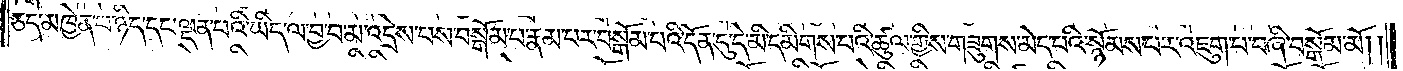ཅད་མཁྱེན་པ་ཉིད་དང་ལྡན་པའི་ཡིད་ལ་བྱ་བ་མ་འདྲེས་པས་བསྒོམ་པ་རྣམ་པར་བསྒོམ་པའི་དོན་དུ་དེ་མི་དམིགས་པའི་ཚུལ་གྱིས་གཟུགས་མེད་པའི་སྙོམས་པར་འཇུག་པ་བཞི་བསྒོམ་མོ། །
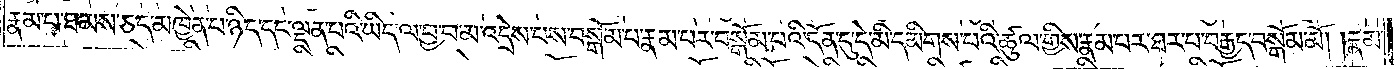རྣམ་པ་ཐམས་ཅད་མཁྱེན་པ་ཉིད་དང་ལྡན་པའི་ཡིད་ལ་བྱ་བ་མ་འདྲེས་པས་བསྒོམ་པ་རྣམ་པར་བསྒོམ་པའི་དོན་དུ་དེ་མི་དམིགས་པའི་ཚུལ་གྱིས་རྣམ་པར་ཐར་པ་བརྒྱད་བསྒོམ་མོ། །རྣམ་
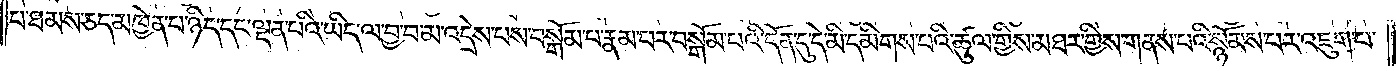པ་ཐམས་ཅད་མཁྱེན་པ་ཉིད་དང་ལྡན་པའི་ཡིད་ལ་བྱ་བ་མ་འདྲེས་པས་བསྒོམ་པ་རྣམ་པར་བསྒོམ་པའི་དོན་དུ་དེ་མི་དམིགས་པའི་ཚུལ་གྱིས་མཐར་གྱིས་གནས་པའི་སྙོམས་པར་འཇུག་པ་
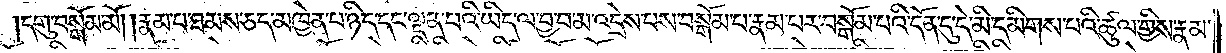དགུ་བསྒོམ་མོ། །རྣམ་པ་ཐམས་ཅད་མཁྱེན་པ་ཉིད་དང་ལྡན་པའི་ཡིད་ལ་བྱ་བ་མ་འདྲེས་པས་བསྒོམ་པ་རྣམ་པར་བསྒོམ་པའི་དོན་དུ་དེ་མི་དམིགས་པའི་ཚུལ་གྱིས་རྣམ་
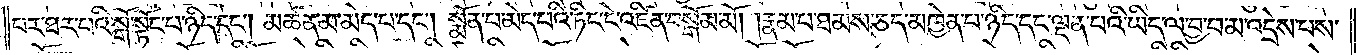པར་ཐར་བའི་སྒོ་སྟོང་པ་ཉིད་དང༌། མཚན་མ་མེད་པ་དང༌། སྨོན་པ་མེད་པའི་ཏིང་ངེ་འཛིན་བསྒོམ་མོ། །རྣམ་པ་ཐམས་ཅད་མཁྱེན་པ་ཉིད་དང་ལྡན་པའི་ཡིད་ལ་བྱ་བ་མ་འདྲེས་པས་
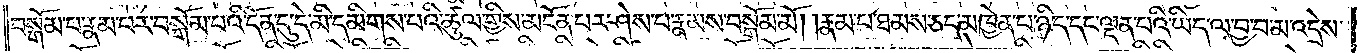བསྒོམ་པ་རྣམ་པར་བསྒོམ་པའི་དོན་དུ་དེ་མི་དམིགས་པའི་ཚུལ་གྱིས་མངོན་པར་ཤེས་པ་རྣམས་བསྒོམ་མོ། །རྣམ་པ་ཐམས་ཅད་མཁྱེན་པ་ཉིད་དང་ལྡན་པའི་ཡིད་ལ་བྱ་བ་མ་འདྲེས་
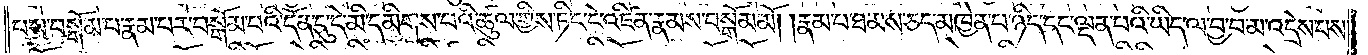པས་བསྒོམ་པ་རྣམ་པར་བསྒོམ་པའི་དོན་དུ་ད་མི་དམིགས་པའི་ཚུལ་གྱིས་ཏིང་ངེ་འཛིན་རྣམས་བསྒོམ་མོ། །རྣམ་པ་ཐམས་ཅད་མཁྱེན་པ་ཉིད་དང་ལྡན་པའི་ཡིད་ལ་བྱ་བ་མ་འདྲེས་པས་
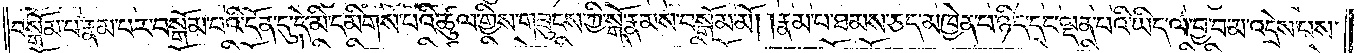བསྒོམ་པ་རྣམ་པར་བསྒོམ་པའི་དོན་དུ་དེ་མི་དམིགས་པའི་ཚུལ་གྱིས་གཟུངས་ཀྱི་སྒོ་རྣམས་བསྒོམ་མོ། །རྣམ་པ་ཐམས་ཅད་མཁྱེན་པ་ཉིད་དང་ལྡན་པའི་ཡིད་ལ་བྱ་བ་མ་འདྲེས་པས་
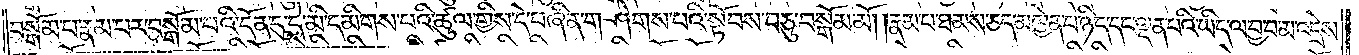བསྒོམ་པ་རྣམ་པར་བསྒོམ་པའི་དོན་དུ་དེ་མི་དམིགས་པའི་ཚུལ་གྱིས་དེ་བཞིན་གཤེགས་པའི་སྟོབས་བཅུ་བསྒོམ་མོ། །རྣམ་པ་ཐམས་ཅད་མཁྱེན་པ་ཉིད་དང་ལྡན་པའི་ཡིད་ལ་བྱ་བ་མ་འདྲེས་
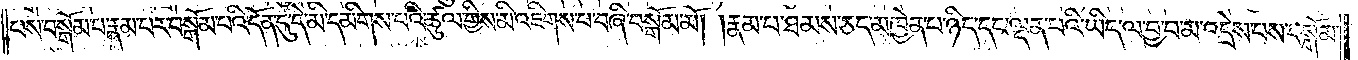པས་བསྒོམ་པ་རྣམ་པར་བསྒོམ་པའི་དོན་དུ་དེ་མི་དམིགས་པའི་ཚུལ་གྱིས་མི་འཇིགས་པ་བཞི་བསྒོམ་མོ། །རྣམ་པ་ཐམས་ཅད་མཁྱེན་པ་ཉིད་དང་ལྡན་པའི་ཡིད་ལ་བྱ་བ་མ་འདྲེས་པས་བསྒོམ་
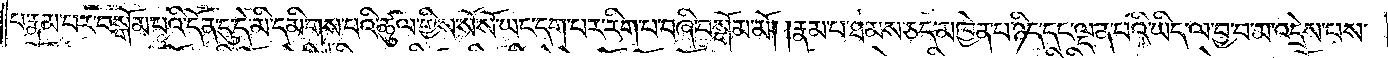པ་རྣམ་པར་བསྒོམ་པའི་དོན་དུ་དེ་མི་དམིགས་པའི་ཚུལ་གྱིས་སོ་སོ་ཡང་དག་པར་རིག་པ་བཞི་བསྒོམ་མོ། །རྣམ་པ་ཐམས་ཅད་མཁྱེན་པ་ཉིད་དང་ལྡན་པའི་ཡིད་ལ་བྱ་བ་མ་འདྲེས་པས་
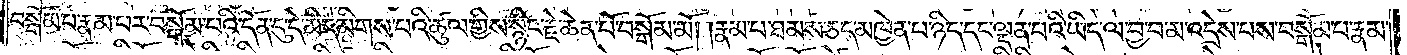བསྒོམ་པ་རྣམ་པར་བསྒོམ་པའི་དོན་དུ་དེ་མི་དམིགས་པའི་ཚུལ་གྱིས་སྙིང་རྗེ་ཆེན་པོ་བསྒོམ་མོ། །རྣམ་པ་ཐམས་ཅད་མཁྱེན་པ་ཉིད་དང་ལྡན་པའི་ཡིད་ལ་བྱ་བ་མ་འདྲེས་པས་བསྒོམ་པ་རྣམ་
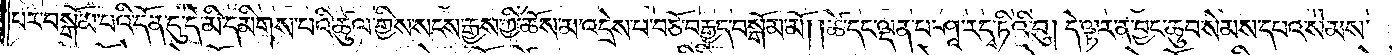པར་བསྒོམ་པའི་དོན་དུ་དེ་མི་དམིགས་པའི་ཚུལ་གྱིས་སངས་རྒྱས་ཀྱི་ཆོས་མ་འདྲེས་པ་བཅོ་བརྒྱད་བསྒོམ་མོ། །ཚེ་དང་ལྡན་པ་ཤཱ་ར་དྭ་ཏིའི་བུ། དེ་ལྟར་ན་བྱང་ཆུབ་སེམས་དཔའ་སེམས་
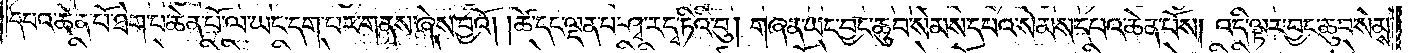དཔའ་ཆེན་པོ་ཐེག་པ་ཆེན་པོ་ལ་ཡང་དག་པར་གནས་ཞེས་བྱའོ། །ཚེ་དང་ལྡན་པ་ཤཱ་རདྭ་ཏིའི་བུ། གཞན་ཡང་བྱང་ཆུབ་སེམས་དཔའ་སེམས་དཔའ་ཆེན་པོས། འདི་ལྟར་བྱང་ཆུབ་སེམས་
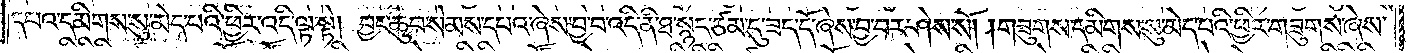དཔའ་དམིགས་སུ་མེད་པའི་ཕྱིར་འདི་ལྟ་སྟེ། བྱང་ཆུབ་སེམས་དཔའ་ཞེས་བྱ་བ་འདི་ནི་ཐ་སྙད་ཙམ་དུ་ཟད་དོ་ཞེས་བྱ་བར་ཤེས་སོ། །གཟུགས་དམིགས་སུ་མེད་པའི་ཕྱིར་གཟུགས་ཞེས་
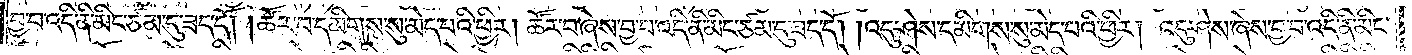བྱ་བ་འདི་ནི་མིང་ཙམ་དུ་ཟད་དོ། །ཚོར་བ་དམིགས་སུ་མེད་པའི་ཕྱིར། ཚོར་བ་ཞེས་བྱ་བ་འདི་ནི་མིང་ཙམ་དུ་ཟད་དོ། །འདུ་ཤེས་དམིགས་སུ་མེད་པའི་ཕྱིར། འདུ་ཤེས་ཞེས་བྱ་བ་འདི་ནི་མིང་
